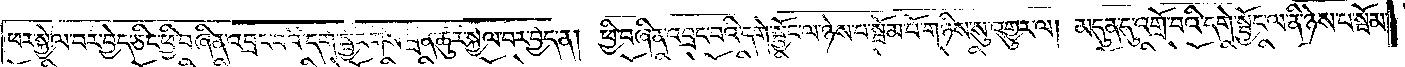ཕར་སྐྱེལ་བར་བྱེད་ཅིང་ཕྱི་བཞིན་འབྲང་བའི་དགེ་སྦྱོང་གིས་ཕྲིན་ཚུར་སྐྱེལ་བར་བྱེད་ན། ཕྱི་བཞིན་འབྲང་བའི་དགེ་སྦྱོང་ལ་ཉེས་པ་སྦོམ་པོ་གཉིས་སུ་འགྱུར་ལ། མདུན་དུ་འགྲོ་བའི་དགེ་སྦྱོང་ལ་ནི་ཉེས་པ་སྦོམ་
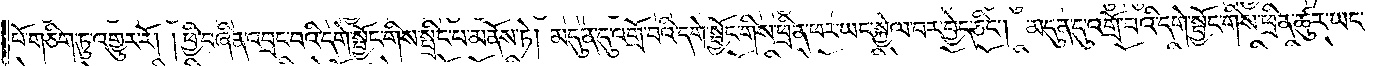པོ་གཅིག་ཏུ་འགྱུར་རོ། །ཕྱི་བཞིན་འབྲང་བའི་དགེ་སྦྱོང་གིས་སྤྲིང་པ་མནོས་ཏེ། མདུན་དུ་འགྲོ་བའི་དགེ་སྦྱོང་གིས་ཕྲིན་ཕར་ཡང་སྐྱེལ་བར་བྱེད་ཅིང༌། མདུན་དུ་འགྲོ་བའི་དགེ་སྦྱོང་གིས་ཕྲིན་ཚུར་ཡང་
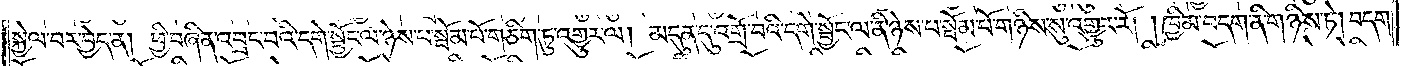སྐྱེལ་བར་བྱེད་ན། ཕྱི་བཞིན་འབྲང་བའི་དགེ་སྦྱོང་ལ་ཉེས་པ་སྦོམ་པོ་གཅིག་ཏུ་འགྱུར་ལ། མདུན་དུ་འགྲོ་བའི་དགེ་སྦྱོང་ལ་ནི་ཉེས་པ་སྦོམ་པོ་གཉིས་སུ་འགྱུར་རོ། །ཁྱིམ་བདག་ནི་གཉིས་ཏེ། བདག་
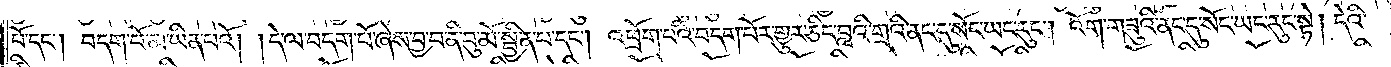པོ་དང༌། བདག་པོ་མ་ཡིན་པའོ། །དེ་ལ་བདག་པོ་ཞེས་བྱ་བ་ནི་བུ་མོ་སྦྱིན་པ་དང༌། འཕྲོག་པའི་བདག་པོར་གྱུར་ཅིང་བླའི་གྲའི་ནང་དུ་སོང་ཡང་རུང༌། འོག་གཟུའི་ནང་དུ་སོང་ཡང་རུང་སྟེ། དེའི་
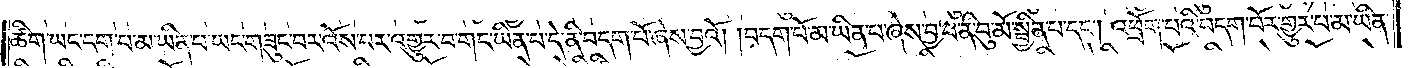ཚིག་ཡང་དག་པ་མ་ཡིན་པ་ཡང་གཟུང་བར་འོས་པར་འགྱུར་བ་གང་ཡིན་པ་དེ་ནི་བདག་པོ་ཞེས་བྱའོ། །བདག་པོ་མ་ཡིན་པ་ཞེས་བྱ་བ་ནི་བུ་མོ་སྦྱིན་པ་དང༌། འཕྲོག་པའི་བདག་པོར་གྱུར་པ་མ་ཡིན་
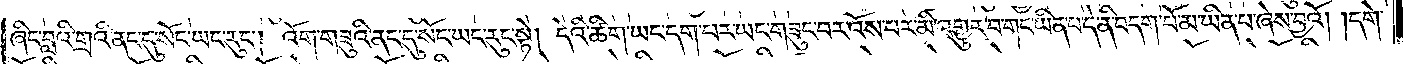ཞིང་བླའི་གྲའི་ནང་དུ་སོང་ཡང་རུང༌། འོག་གཟུའི་ནང་དུ་སོང་ཡང་རུང་སྟེ། དེའི་ཚིག་ཡང་དག་པར་ཡང་གཟུང་བར་འོས་པར་མི་འགྱུར་བ་གང་ཡིན་པ་དེ་ནི་བདག་པོ་མ་ཡིན་པ་ཞེས་བྱའོ། །དགེ་
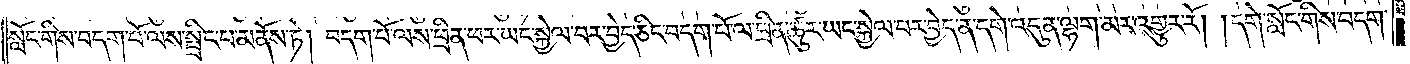སློང་གིས་བདག་པོ་ལས་སྤྲིང་པ་མནོས་ཏེ། བདག་པོ་ལས་ཕྲིན་ཕར་ཡང་སྐྱེལ་བར་བྱེད་ཅིང་བདག་པོ་ལ་ཕྲིན་ཚུར་ཡང་སྐྱེལ་བར་བྱེད་ན་དགེ་འདུན་ལྷག་མར་འགྱུར་རོ། །དགེ་སློང་གིས་བདག་
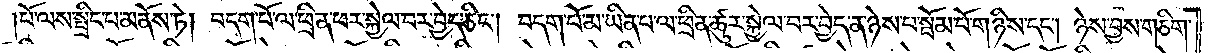པོ་ལས་སྤྲིང་པ་མནོས་ཏེ། བདག་པོ་ལ་ཕྲིན་ཕར་སྐྱེལ་བར་བྱེད་ཅིང༌། བདག་པོ་མ་ཡིན་པ་ལ་ཕྲིན་ཚུར་སྐྱེལ་བར་བྱེད་ན་ཉེས་པ་སྦོམ་པོ་གཉིས་དང༌། ཉེས་བྱས་གཅིག་
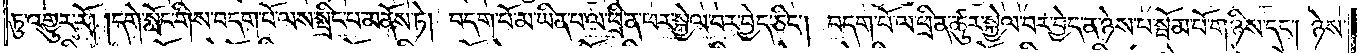ཏུ་འགྱུར་རོ། །དགེ་སློང་གིས་བདག་པོ་ལས་སྤྲིང་པ་མནོས་ཏེ། བདག་པོ་མ་ཡིན་པ་ལ་ཕྲིན་ཕར་སྐྱེལ་བར་བྱེད་ཅིང༌། བདག་པོ་ལ་ཕྲིན་ཚུར་སྐྱེལ་བར་བྱེད་ན་ཉེས་པ་སྦོམ་པོ་གཉིས་དང༌། ཉེས་
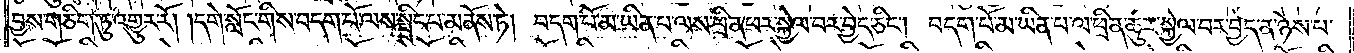བྱས་གཅིག་ཏུ་འགྱུར་རོ། །དགེ་སློང་གིས་བདག་པོ་ལས་སྤྲིང་པ་མནོས་ཏེ། བདག་པོ་མ་ཡིན་པ་ལས་ཕྲིན་ཕར་སྐྱེལ་བར་བྱེད་ཅིང༌། བདག་པོ་མ་ཡིན་པ་ལ་ཕྲིན་ཚུར་སྐྱེལ་བར་བྱེད་ན་ཉེས་པ་
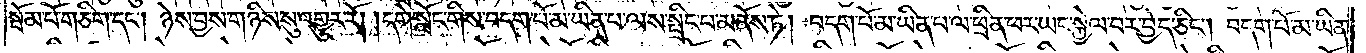སྦོམ་པོ་གཅིག་དང༌། ཉེས་བྱས་གཉིས་སུ་འགྱུར་རོ། །དགེ་སློང་གིས་བདག་པོ་མ་ཡིན་པ་ལས་སྤྲིང་པ་མནོས་ཏེ། བདག་པོ་མ་ཡིན་པ་ལ་ཕྲིན་ཕར་ཡང་སྐྱེལ་བར་བྱེད་ཅིང༌། བདག་པོ་མ་ཡིན་
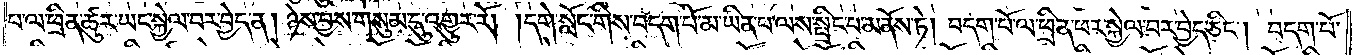པ་ལ་ཕྲིན་ཚུར་ཡང་སྐྱེལ་བར་བྱེད་ན། ཉེས་བྱས་གསུམ་དུ་འགྱུར་རོ། །དགེ་སློང་གིས་བདག་པོ་མ་ཡིན་པ་ལས་སྤྲིང་པ་མནོས་ཏེ། བདག་པོ་ལ་ཕྲིན་ཕར་སྐྱེལ་བར་བྱེད་ཅིང༌། བདག་པོ་
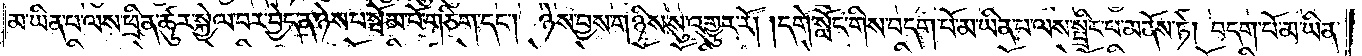མ་ཡིན་པ་ལས་ཕྲིན་ཚུར་སྐྱེལ་བར་བྱེད་ན་ཉེས་པ་སྦོམ་པོ་གཅིག་དང༌། ཉེས་བྱས་གཉིས་སུ་འགྱུར་རོ། །དགེ་སློང་གིས་བདག་པོ་མ་ཡིན་པ་ལས་སྤྲིང་པ་མནོས་ཏེ། བདག་པོ་མ་ཡིན་
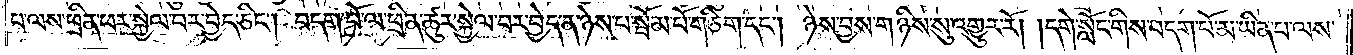པ་ལས་ཕྲིན་ཕར་སྐྱེལ་བར་བྱེད་ཅིང༌། བདག་པོ་ལ་ཕྲིན་ཚུར་སྐྱེལ་བར་བྱེད་ན་ཉེས་པ་སྦོམ་པོ་གཅིག་དང༌། ཉེས་བྱས་གཉིས་སུ་འགྱུར་རོ། །དགེ་སློང་གིས་བདག་པོ་མ་ཡིན་པ་ལས་
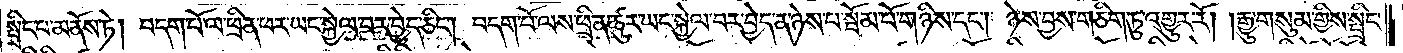སྤྲིང་པ་མནོས་ཏེ། བདག་པོ་ལ་ཕྲིན་ཕར་ཡང་སྐྱེལ་བར་བྱེད་ཅིང༌། བདག་པོ་ལས་ཕྲིན་ཚུར་ཡང་སྐྱེལ་བར་བྱེད་ན་ཉེས་པ་སྦོམ་པོ་གཉིས་དང༌། ཉེས་བྱས་གཅིག་ཏུ་འགྱུར་རོ། །རྒྱུ་གསུམ་གྱིས་སྤྲིང་
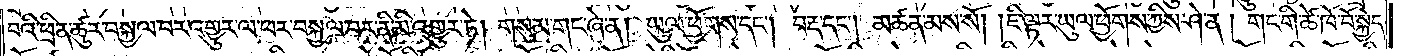པའི་ཕྲིན་ཚུར་བསྐྱལ་བར་འགྱུར་ལ་ཕར་བསྐྱལ་བར་ནི་མི་འགྱུར་ཏེ། གསུམ་གང་ཞེ་ན། ཡུལ་ཕྱོགས་དང༌། བརྡ་དང༌། མཚན་མས་སོ། །ཇི་ལྟར་ཡུལ་ཕྱོགས་ཀྱིས་ཤེ་ན། གང་གི་ཚེ་ཁོ་བོ་སྐྱེད་
